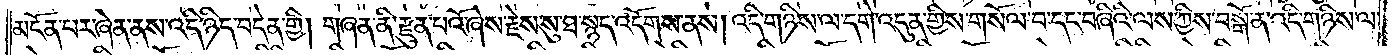མངོན་པར་ཞེན་ནས་འདི་ཉིད་བདེན་གྱི། གཞན་ནི་རྫུན་པའོ་ཞེས་རྗེས་སུ་ཐ་སྙད་འདོགས་ནས། འདི་གཉིས་ལ་དགེ་འདུན་གྱིས་གསོལ་བ་དང་བཞིའི་ལས་ཀྱིས་བསྒོ་ན་འདི་གཉིས་ལ་
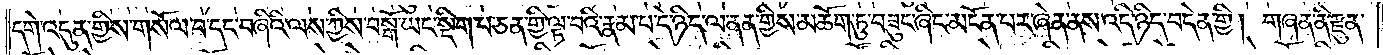དགེ་འདུན་གྱིས་གསོལ་བ་དང་བཞིའི་ལས་ཀྱིས་བསྒོ་ཡང་སྡིག་པ་ཅན་གྱི་ལྟ་བའི་རྣམ་པ་དེ་ཉིད་ལ་ནན་གྱིས་མཆོག་ཏུ་བཟུང་ཞིང་མངོན་པར་ཞེན་ནས་འདི་ཉིད་བདེན་གྱི། གཞན་ནི་རྫུན་
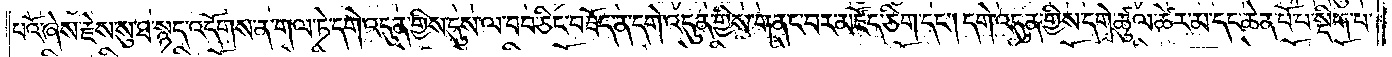པའོ་ཞེས་རྗེས་སུ་ཐ་སྙད་འདོགས་ན་གལ་ཏེ་དགེ་འདུན་གྱིས་དུས་ལ་བབ་ཅིང་བཟོད་ན་དགེ་འདུན་གྱིས་གནང་བར་མཛོད་ཅིག་དང༌། དགེ་འདུན་གྱིས་དགེ་ཚུལ་ཚེར་མ་དང་ཆེན་པོ་པ་སྡིག་པ་
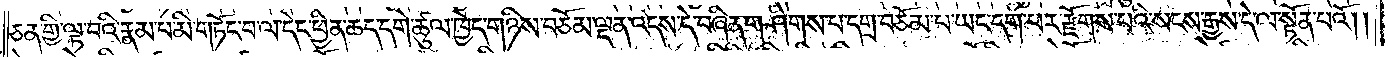ཅན་གྱི་ལྟ་བའི་རྣམ་པ་མི་གཏོང་བ་ལ་དེང་ཕྱིན་ཆད་དགེ་ཚུལ་ཁྱེད་གཉིས་བཅོམ་ལྡན་འདས་དེ་བཞིན་གཤེགས་པ་དགྲ་བཅོམ་པ་ཡང་དག་པར་རྫོགས་པའི་སངས་རྒྱས་དེ་ལ་སྟོན་པའོ། །
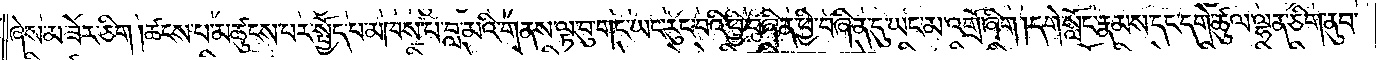ཞེས་མ་ཟེར་ཅིག །ཚངས་པ་མཚུངས་པར་སྤྱོད་པ་མཁས་པ་བླ་མའི་གནས་ལྟ་བུ་གང་ཡང་རུང་བའི་ཕྱི་བཞིན་ཕྱི་བཞིན་དུ་ཡང་མ་འགྲོ་ཞིག །དགེ་སློང་རྣམས་དང་དགེ་ཚུལ་ལྷན་ཅིག་ནུབ་
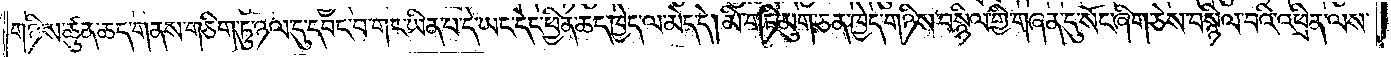གཉིས་ཚུན་ཆད་གནས་གཅིག་ཏུ་ཉལ་དུ་དབང་བ་གང་ཡིན་པ་དེ་ཡང་དེང་ཕྱིན་ཆད་ཁྱེད་ལ་མེད་དེ། མི་གཏི་མུག་ཅན་ཁྱེད་གཉིས་བསྙིལ་གྱི་གཞན་དུ་སོང་ཞིག་ཅེས་བསྙིལ་བའི་འཕྲིན་ལས་
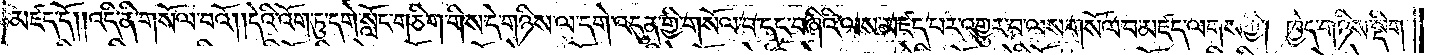མཛད་དོ། །འདི་ནི་གསོལ་བའོ། །དེའི་འོག་ཏུ་དགེ་སློང་གཅིག་གིས་དེ་གཉིས་ལ་དགེ་འདུན་གྱི་གསོལ་བ་དང་བཞིའི་ལས་མཛད་པར་འགྱུར་བ་ལས་གསོལ་བ་མཛད་ལགས་ཀྱི། ཁྱེད་གཉིས་སྡིག་
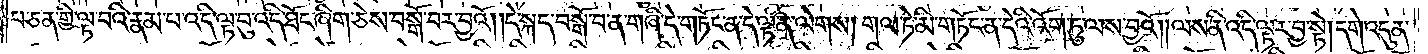པ་ཅན་གྱི་ལྟ་བའི་རྣམ་པ་འདི་ལྟ་བུ་འདི་ཐོང་ཞིག་ཅེས་བསྒོ་བར་བྱའོ། །དེ་སྐད་བསྒོ་བ་ན་གཞི་དེ་གཏོང་ན་དེ་ལྟ་ན་ལེགས། གལ་ཏེ་མི་གཏོང་ན་དེའི་འོག་ཏུ་ལས་བྱའོ། །ལས་ནི་འདི་ལྟར་བྱ་སྟེ། དགེ་འདུན་
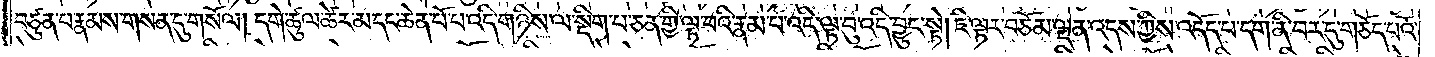བཙུན་པ་རྣམས་གསན་དུ་གསོལ། དགེ་ཚུལ་ཚེར་མ་དང་ཆེན་པོ་པ་འདི་གཉིས་ལ་སྡིག་པ་ཅན་གྱི་ལྟ་བའི་རྣམ་པ་འདི་ལྟ་བུ་འདི་བྱུང་སྟེ། ཇི་ལྟར་བཅོམ་ལྡན་འདས་ཀྱིས་འདོད་པ་དག་ནི་བར་དུ་གཅོད་པའོ་
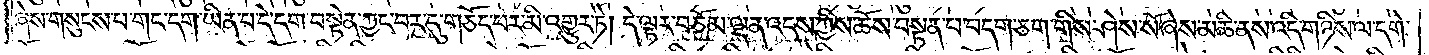ཞེས་གསུངས་པ་གང་དག་ཡིན་པ་དེ་དག་བསྟེན་ཀྱང་བར་དུ་གཅོད་པར་མི་འགྱུར་ཏེ། དེ་ལྟར་བཅོམ་ལྡན་འདས་ཀྱིས་ཆོས་བསྟན་པ་བདག་ཅག་གིས་ཤེས་སོ་ཞེས་མཆི་ནས་འདི་གཉིས་ལ་དགེ་
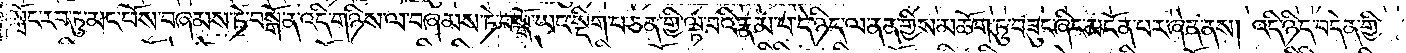སློང་རབ་ཏུ་མང་པོས་བཞམས་ཏེ་བསྒོ་ན་འདི་གཉིས་ལ་བཞམས་ཏེ་བསྒོ་ཡང་སྡིག་པ་ཅན་གྱི་ལྟ་བའི་རྣམ་པ་དེ་ཉིད་ལ་ནན་གྱིས་མཆོག་ཏུ་བཟུང་ཞིང་མངོན་པར་ཞེན་ནས། འདི་ཉིད་བདེན་གྱི་
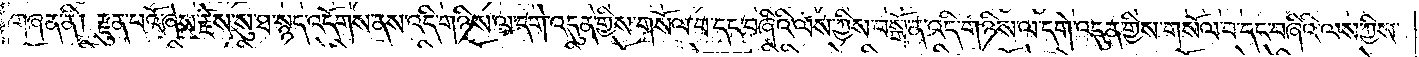གཞན་ནི། རྫུན་པའོ་ཞེས་རྗེས་སུ་ཐ་སྙད་འདོགས་ནས་འདི་གཉིས་ལ་དགེ་འདུན་གྱིས་གསོལ་བ་དང་བཞིའི་ལས་ཀྱིས་བསྒོ་ན་འདི་གཉིས་ལ་དགེ་འདུན་གྱིས་གསོལ་བ་དང་བཞིའི་ལས་ཀྱིས་
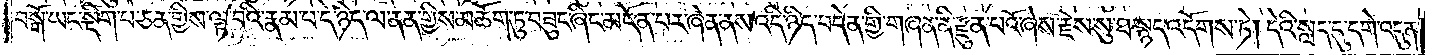བསྒོ་ཡང་སྡིག་པ་ཅན་གྱིས་ལྟ་བའི་རྣམ་པ་དེ་ཉིད་ལ་ནན་གྱིས་མཆོག་ཏུ་བཟུང་ཞིང་མངོན་པར་ཞེན་ནས་འདི་ཉིད་བདེན་གྱི་གཞན་ནི་རྫུན་པའོ་ཞེས་རྗེས་སུ་ཐ་སྙད་འདོགས་ཏེ། དེའི་སླད་དུ་དགེ་འདུན་
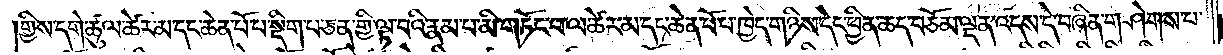གྱིས་དགེ་ཚུལ་ཚེར་མ་དང་ཆེན་པོ་པ་སྡིག་པ་ཅན་གྱི་ལྟ་བའི་རྣམ་པ་མི་གཏོང་བ་ལ་ཚེར་མ་དང་ཆེན་པོ་པ་ཁྱེད་གཉིས་དེང་ཕྱིན་ཆད་བཅོམ་ལྡན་འདས་དེ་བཞིན་གཤེགས་པ་
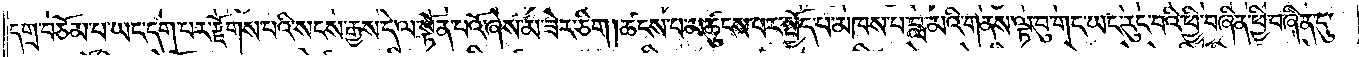དགྲ་བཅོམ་པ་ཡང་དག་པར་རྫོགས་པའི་སངས་རྒྱས་དེ་ལ་སྟོན་པའོ་ཞེས་མ་ཟེར་ཅིག །ཚངས་པ་མཚུངས་པར་སྤྱོད་པ་མཁས་པ་བླ་མའི་གནས་ལྟ་བུ་གང་ཡང་རུང་བའི་ཕྱི་བཞིན་ཕྱི་བཞིན་དུ་
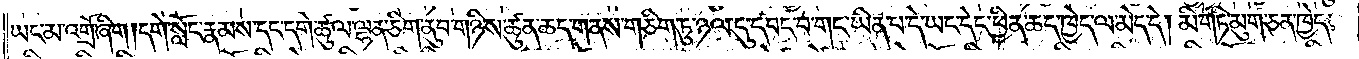ཡང་མ་འགྲོ་ཞིག །དགེ་སློང་རྣམས་དང་དགེ་ཚུལ་ལྷན་ཅིག་ནུབ་གཉིས་ཚུན་ཆད་གནས་གཅིག་ཏུ་ཉལ་དུ་དབང་བ་གང་ཡིན་པ་དེ་ཡང་དེང་ཕྱིན་ཆད་ཁྱེད་ལ་མེད་དེ། མི་གཏི་མུག་ཅན་ཁྱེད་
